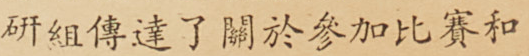研組傳達了關於參加比賽和
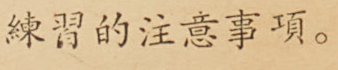練習的注意事項。
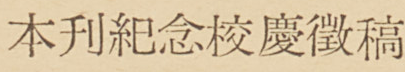本刊紀念校慶徵稿
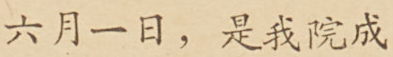六月一日，是我院成
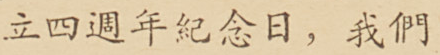立四週年紀念日，我們
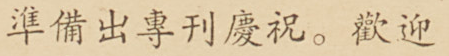準備出專刊慶祝。歡迎
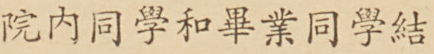院內同學和畢業同學結
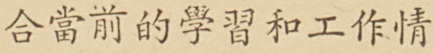合當前的學習和工作情
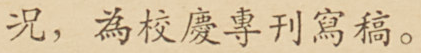況，為校慶專刊寫稿。
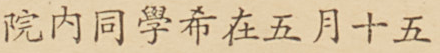院內同學希在五月十五
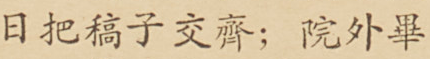日把稿子交齊；院外畢
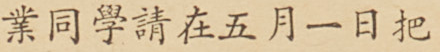業同學請在五月一日把
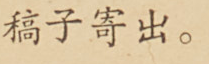稿子寄出。
